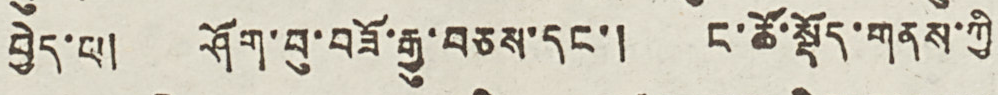བྱེད་པ། ཤོག་བུ་བཟོ་རྒྱུ་བཅས་དང་། ང་ཚོ་སྡོད་གནས་ཀྱི
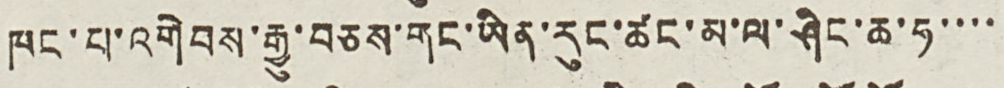ཁང་པ་འགེབས་རྒྱུ་བཅས་གང་ཡིན་རུང་ཚང་མ་ལ་ཤིང་ཆ་ཧ་་་་
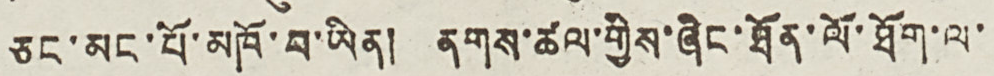ཅང་མང་པོ་མཁོ་བ་ཡིན། ནགས་ཚལ་གྱིས་ཞིང་ཐོན་ལོ་ཐོག་ལ་
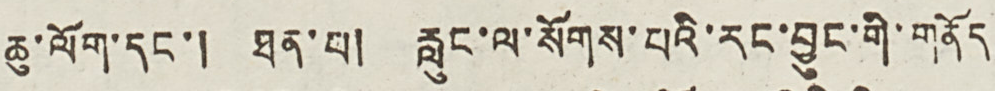ཆུ་ལོག་དང་། ཐན་པ། རླུང་ལ་སོགས་པའི་རང་བྱུང་གི་གནོད
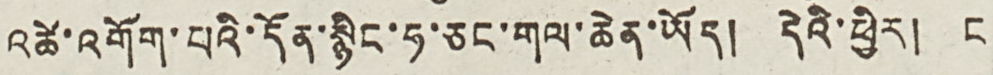འཚེ་འགོག་པའི་དོན་སྙིང་ཧ་ཅང་གལ་ཆེན་ཡོད། དེའི་ཕྱིར། ང
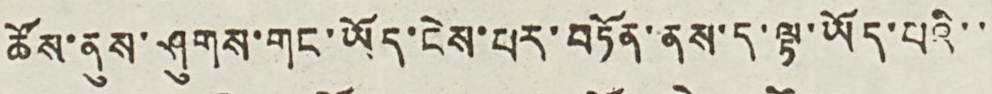ཚོས་ནུས་ཤུགས་གང་ཡོད་ངེས་པར་བཏོན་ནས་ད་ལྟ་ཡོད་པའི་་
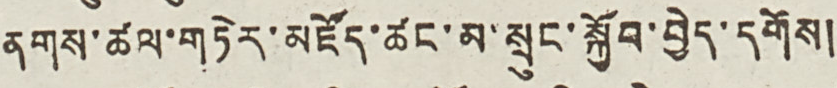ནགས་ཚལ་གཏེར་མཛོད་ཚང་མ་སྲུང་སྐྱོབ་བྱེད་དགོས།
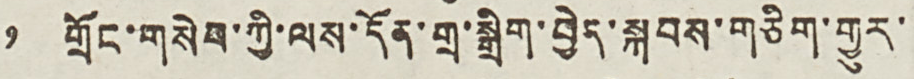༡ གྲོང་གསེབ་ཀྱི་ལས་དོན་གྲ་སྒྲིག་བྱེད་སྐབས་གཅིག་གྱུར་
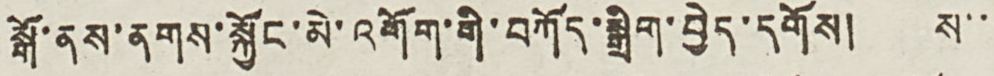སྒོ་ནས་གནས་སྐྱོང་མེ་འགོག་གི་བཀོད་སྒྲིག་བྱེད་དགོས། ས་་
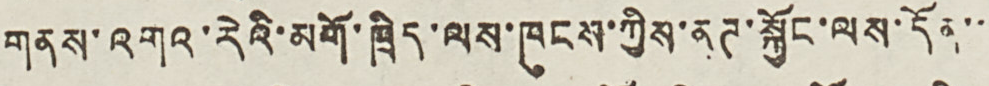གནས་འགའ་རེའི་མགོ་ཁྲིད་ལས་ཁུངས་ཀྱིས་ནཊ་སྐྱོང་ལས་དོན་་
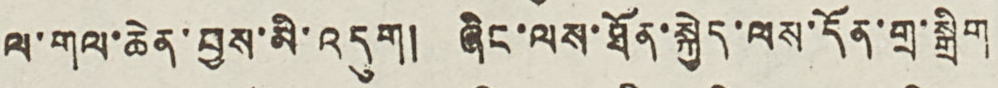ལ་གལ་ཆེན་བྱས་མི་འདུག། ཞིང་ལས་ཐོན་སྐྱེད་ལས་དོན་གྲ་སྒྲིག
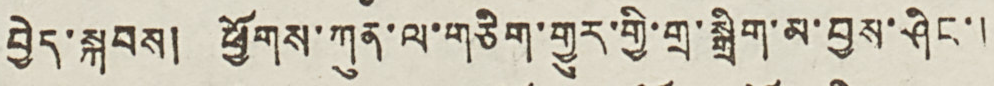བྱེད་སྐབས། ཕྱོགས་ཀུན་ལ་གཅིག་གྱུར་གྱི་གྲ་སྒྲིག་མ་བྱས་ཤིང་།
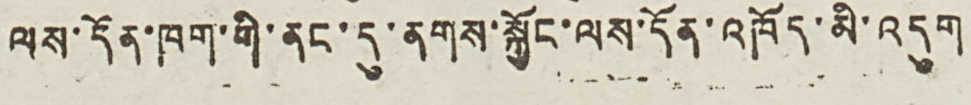ལས་དོན་ཁག་གི་ནང་དུ་ནགས་སྐྱོང་ལས་དོན་འཁོད་མི་འདུག
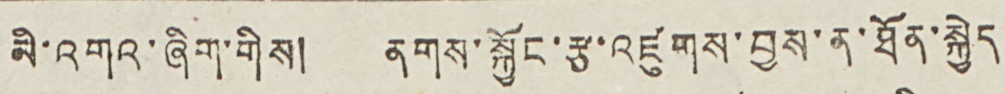མི་འགའ་ཞིག་གིས། ནགས་སྐྱོང་རྩ་འཛུགས་བྱས་ན་ཐོན་སྐྱེད
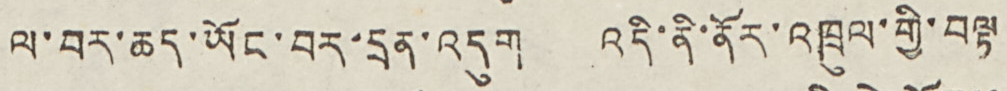ལ་བར་ཆད་ཡོང་བར་དྲན་འདུག འདི་ནི་ནོར་འཁྲུལ་གྱི་བལྟ
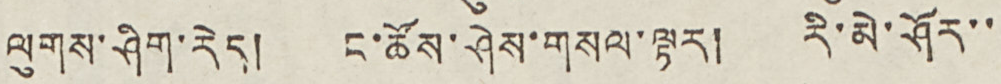ལུགས་ཤིག་རེད། ང་ཚོས་ཤེས་གསལ་ལྟར། རི་མེ་ཤོར་་
